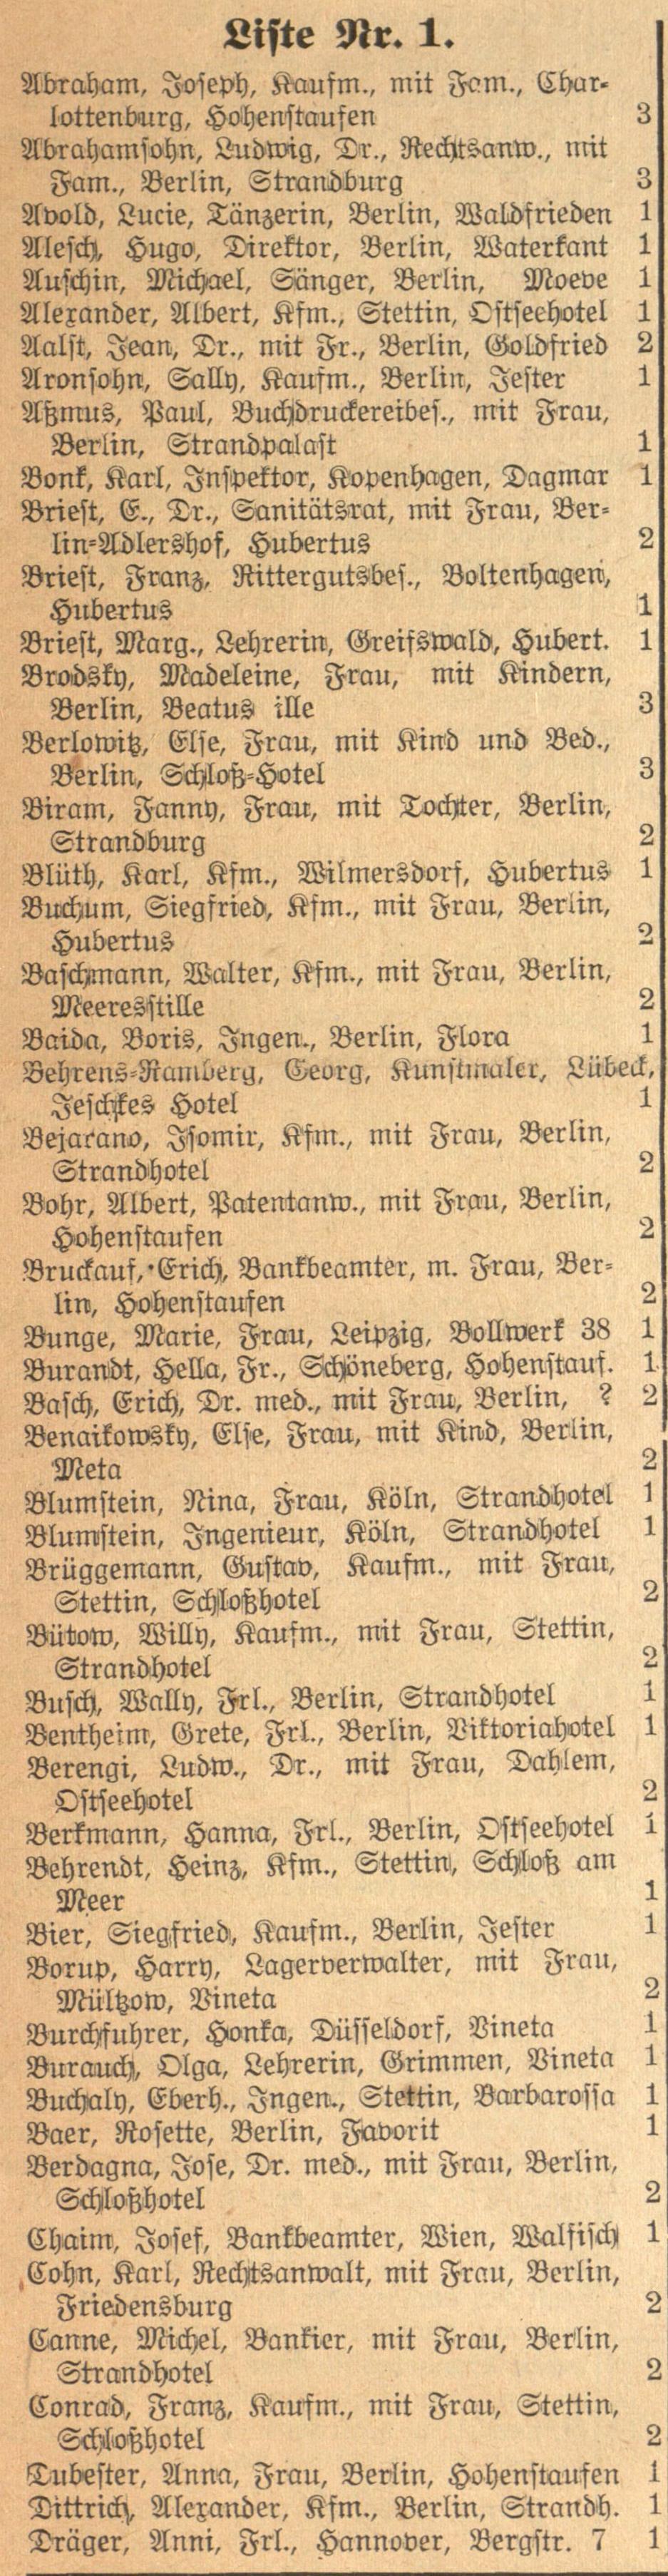Liste Nr. 1.
Abraham, Joseph, Kaufm., mit Fam., Char=
lottenburg, Hohenstaufen | 3
Abrahamsohn, Ludwig, Dr., Rechtsanw., mit
Fam., Berlin, Strandburg | 3
Avold, Lucie, Tänzerin, Berlin, Waldfrieden | 1
Alesch, Hugo, Direktor, Berlin, Waterkant | 1
Auschin, Michael, Sänger, Berlin, Moeve | 1
Alexander, Albert, Kfm., Stettin, Ostseehotel | 1
Aalst, Jean, Dr., mit Fr., Berlin, Goldfried | 2
Aronsohn, Sally, Kaufm., Berlin, Jester | 1
Aßmus, Paul, Buchdruckereibes., mit Frau,
Berlin, Strandpalast | 1
Bonk, Karl, Inspektor, Kopenhagen, Dagmar | 1
Briest, E., Dr., Sanitätsrat, mit Frau, Ber=
lin=Adlershof, Hubertus | 2
Briest, Franz, Rittergutsbes., Boltenhagen,
Hubertus | 1
Briest, Marg., Lehrerin, Greifswald, Hubert. | 1
Brodsky, Madeleine, Frau, mit Kindern,
Berlin, Beatus ille | 3
Berlowitz, Else, Frau, mit Kind und Bed.,
Berlin, Schloß=Hotel | 3
Biram, Fanny, Frau, mit Tochter, Berlin,
Strandburg | 2
Blüth, Karl, Kfm., Wilmersdorf, Hubertus | 1
Buchum, Siegfried, Kfm., mit Frau, Berlin,
Hubertus | 2
Baschmann, Walter, Kfm., mit Frau, Berlin,
Meeresstille | 2
Baida, Boris, Ingen., Berlin, Flora | 1
Behrens=Ramberg, Georg, Kunstmaler, Lübeck,
Jeschkes Hotel | 1
Bejarano, Isomir, Kfm., mit Frau, Berlin,
Strandhotel | 2
Bohr, Albert, Patentanw., mit Frau, Berlin,
Hohenstaufen | 2
Bruckauf, Erich, Bankbeamter, m. Frau, Ber=
lin, Hohenstaufen | 2
Bunge, Marie, Frau, Leipzig, Bollwerk 38 | 1
Burandt, Hella, Fr., Schöneberg, Hohenstauf. | 1
Basch, Erich, Dr. med., mit Frau, Berlin, ? | 2
Benaikowsky, Else, Frau, mit Kind, Berlin,
Meta | 2
Blumstein, Nina, Frau, Köln, Strandhotel | 1
Blumstein, Ingenieur, Köln, Strandhotel | 1
Brüggemann, Gustav, Kaufm., mit Frau,
Stettin, Schloßhotel | 2
Bütow, Willy, Kaufm., mit Frau, Stettin,
Strandhotel | 2
Busch, Wally, Frl., Berlin, Strandhotel | 1
Bentheim, Grete, Frl., Berlin, Viktoriahotel | 1
Berengi, Ludw., Dr., mit Frau, Dahlem,
Ostseehotel | 2
Berkmann, Hanna, Frl., Berlin, Ostseehotel | 1
Behrendt, Heinz, Kfm., Stettin, Schloß am
Meer | 1
Bier, Siegfried, Kaufm., Berlin, Jester | 1
Borup, Harry, Lagerverwalter, mit Frau,
Mültzow, Vineta | 2
Burchfuhrer, Honka, Düsseldorf, Vineta | 1
Burauch, Olga, Lehrerin, Grimmen, Vineta | 1
Buchaly, Eberh., Ingen., Stettin, Barbarossa | 1
Baer, Rosette, Berlin, Favorit | 1
Berdagna, Jose, Dr. med., mit Frau, Berlin,
Schloßhotel | 2
Chaim, Josef, Bankbeamter, Wien, Walfisch | 1
Cohn, Karl, Rechtsanwalt, mit Frau, Berlin,
Friedensburg | 2
Canne, Michel, Bankier, mit Frau, Berlin,
Strandhotel | 2
Conrad, Franz, Kaufm., mit Frau, Stettin,
Schloßhotel | 2
Dubester, Anna, Frau, Berlin, Hohenstaufen | 1
Dittrich, Alexander, Kfm., Berlin, Strandh. | 1
Dräger, Anni, Frl., Hannover, Bergstr. 7 | 1
